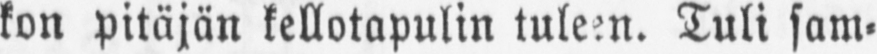kon pitäjän kellotapulin tuleen. Tuli sam-
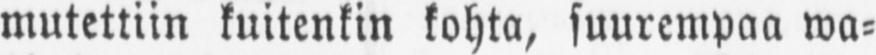mutettiin kuitenkin kohta, suurempaa wa-
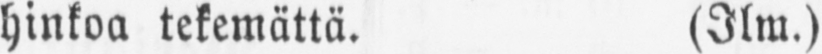hinkoa tekemättä. (Ilm.)
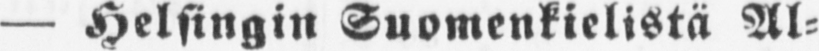— Helsingin Suomenkielistä Al-
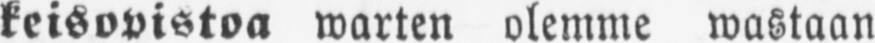keisopistoa warten olemme wastaan
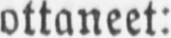ottaneet:
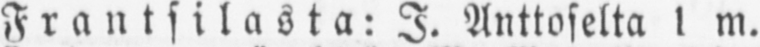Frantsilasta: I. Anttoselta 1 m.
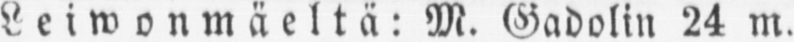Leiwonmäeltä: M. Gadolin 24 m.
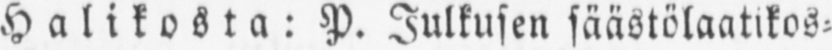Halikosta: P. Julkusen säästölaatikos-
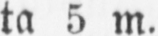ta 5 m.
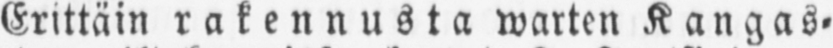Erittäin rakennusta warten Kangas-
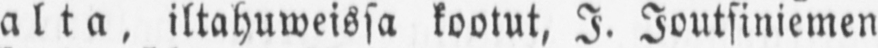alta, iltahuweissa kootut, I. Joutsiniemen
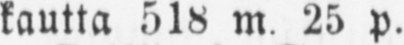kautta 518 m 25 p.
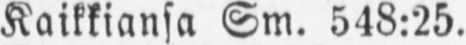Kaikkiansa Sm. 548:25.
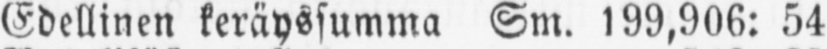Edellinen keräyssumma Sm. 199,906: 54.
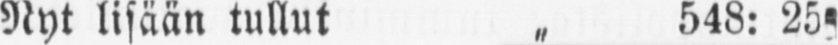Nyt lisään tullut „ 548: 25.
